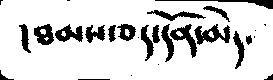།ཐམས་ཅད་དོན་མེད་
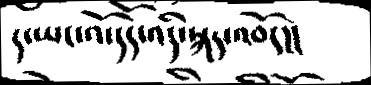ད་ཡང་འོ་དོད་འདི་སྐད་འབོད།།
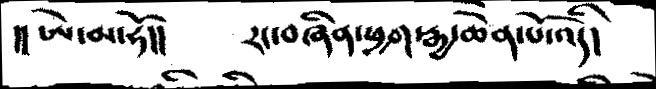།།ཨེ་མ་ཧོ།།   རང་བཞིན་ཕྱག་རྒྱ་ཆེན་པོ་འདི།
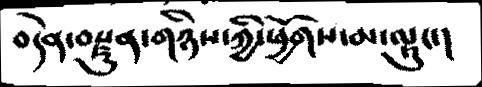བདེན་བརྫུན་གཉིས་ཀྱི་ཕྱོགས་མ་ལྟུང་།
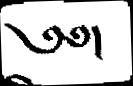༄༅།
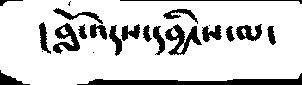བློ་འདས་དབྱིངས་ལ་
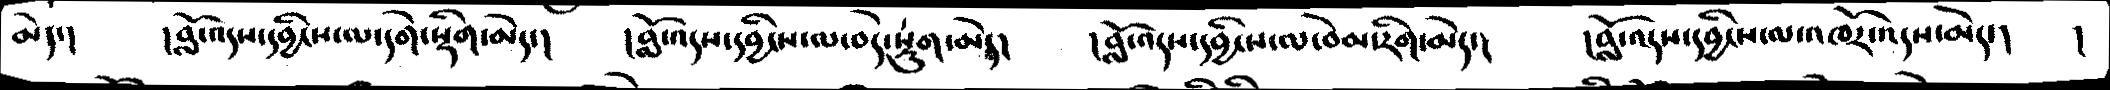མེད་།    །བློ་འདས་དབྱིངས་ལ་དགེ་སྡིག་མེད་།   །བློ་འདས་དབྱིངས་ལ་བདེ་སྡུག་མེད་།     །བློ་འདས་དབྱིངས་ལ་བེམ་རིག་མེད་།   །བློ་འདས་དབྱིངས་ལ་འཁོར་འདས་མེད་།    །
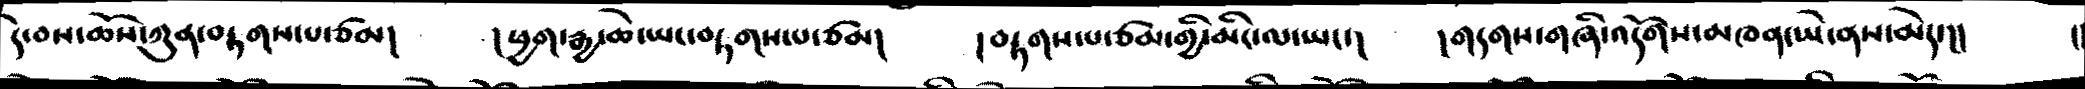དེ་བས་ཆོས་ཀུན་བརྟགས་པ་ཙམ།    །ཕྱག་རྒྱ་ཆེ་ཡང་བཏགས་པ་ཙམ།    །བཏགས་པ་ཙམ་གྱི་མིང་ལ་ཡང་།   །གདགས་གཞི་འདོགས་མཁན་ཡེ་ནས་མེད་།།    །
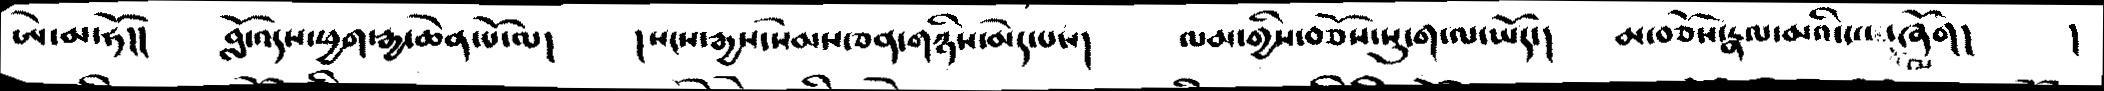ཨེ་མ་ཧོ།།    བློ་འདས་ཕྱག་རྒྱ་ཆེན་པོ་ལ།    །སངས་རྒྱས་སེམས་ཅན་གཉིས་མེད་པས།   ལམ་གྱིས་བཅོས་སུ་ག་ལ་ཡོད་།   མ་བཅོས་རྣལ་མའི་ངང་ལ་ཞོག།   །
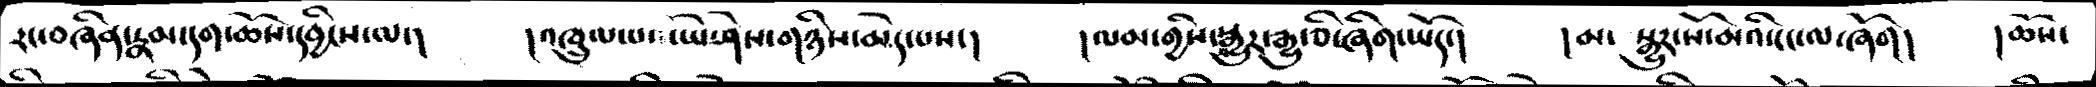རང་བཞིན་རྣམ་དག་ཆོས་དབྱིངས་ལ་།    །འཁྲུལ་པ ་ཡེ་ཤེས་གཉིས་མེད་པས་།     །ལམ་གྱིས་སྒྱུར་རྒྱུ་ཅི་ཞིག་ཡོད་།   །མ་སྒྱུར་སོ་མའོ་ངང་ལ་ཞོག།    །ཆོས་
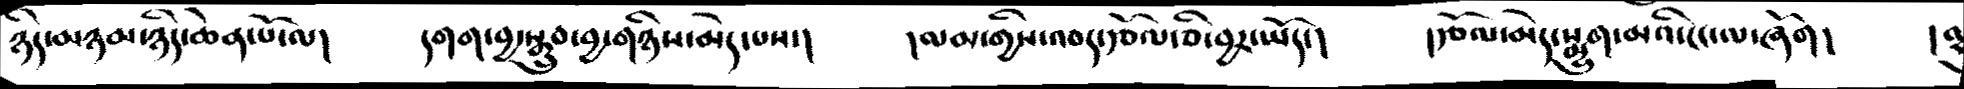ཉིད་མཉམ་ཉིད་ཆེན་པོ་ལ།     དགག་བྱ་སྒྲུབ་བྱ་གཉིས་མེད་པས་།     །ལམ་གྱིས་འབད་རྩོལ་ཅི་བྱར་ཡོད་།     །རྩོལ་མེད་སྨྱུག་མའི་ངང་ལ་ཞོག།    །ལྷུ
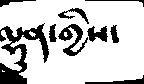ལྷུན་གྱིས་
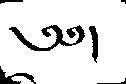༄༅།
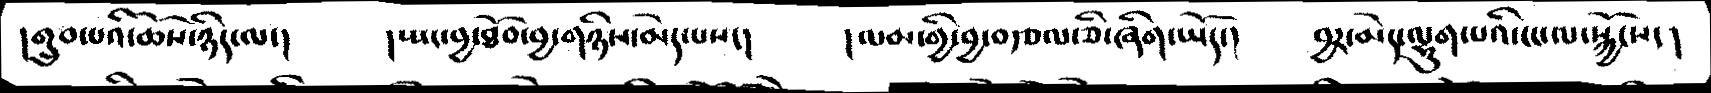།གྲུབ་པའི་ཆོས་ཉིད་ལ་།   །སྤང་བྱ་ཐོབ་བྱ་གཉིས་མེད་པས་།   །ལམ་གྱི་བྱ་བརྩལ་ཅི་ཞིག་ཡོད་།   བྱར་མེད་ལྷུག་པའི་ངང་ལ་སྐྱོངས་།
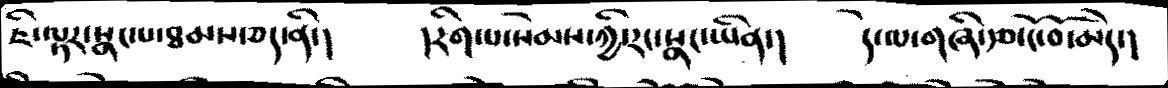ཇི་ལྟར་སྣང་པ་ཐམས་ཅད་ནི་།   །རིག་པ་སེམས་ཀྱི་རང་སྣང་ཡིན་།   དེ་ལ་གཞི་རྩ་ངོ་བོ་མེད་།
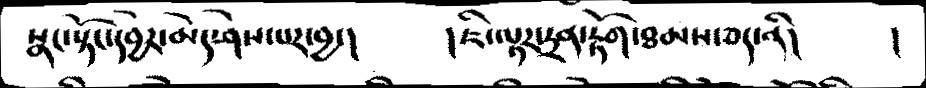སྣང་སྟོང་དབྱེར་མེད་ཤེས་པར་བྱ་།   །ཇི་ལྟར་དྲན་རྟོག་ཐམས་ཅད་ནི།   །
